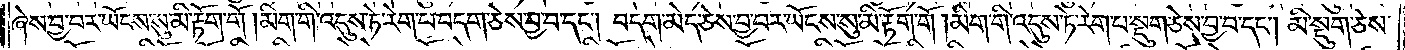ཞེས་བྱ་བར་ཡོངས་སུ་མི་རྟོག་གོ །མིག་གི་འདུས་ཏེ་རེག་པ་བདག་ཅེས་བྱ་བ་དང༌། བདག་མེད་ཅེས་བྱ་བར་ཡོངས་སུ་མི་རྟོག་གོ །མིག་གི་འདུས་ཏེ་རེག་པ་སྡུག་ཅེས་བྱ་བ་དང༌། མི་སྡུག་ཅེས་
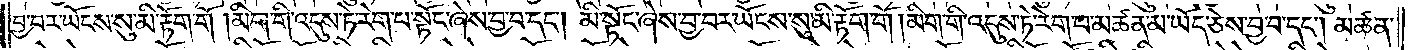བྱ་བར་ཡོངས་སུ་མི་རྟོག་གོ །མིག་གི་འདུས་ཏེ་རེག་པ་སྟོང་ཞེས་བྱ་བ་དང༌། མི་སྟོང་ཞེས་བྱ་བར་ཡོངས་སུ་མི་རྟོག་གོ །མིག་གི་འདུས་ཏེ་རེག་པ་མཚན་མ་ཡོད་ཅེས་བྱ་བ་དང༌། མཚན་
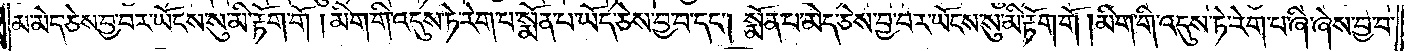མ་མེད་ཅེས་བྱ་བར་ཡོངས་སུ་མི་རྟོག་གོ །མིག་གི་འདུས་ཏེ་རེག་པ་སྨོན་པ་ཡོད་ཅེས་བྱ་བ་དང༌། སྨོན་པ་མེད་ཅེས་བྱ་བར་ཡོངས་སུ་མི་རྟོག་གོ །མིག་གི་འདུས་ཏེ་རེག་པ་ཞི་ཞེས་བྱ་བ་
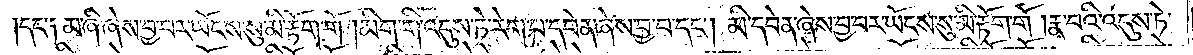དང༌། མ་ཞི་ཞེས་བྱ་བར་ཡོངས་སུ་མི་རྟོག་གོ །མིག་གི་འདུས་ཏེ་རེག་པ་དབེན་ཞེས་བྱ་བ་དང༌། མི་དབེན་ཞེས་བྱ་བར་ཡོངས་སུ་མི་རྟོག་གོ །རྣ་བའི་འདུས་ཏེ་
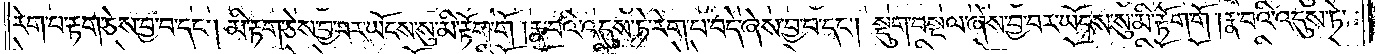རེག་པ་རྟག་ཅེས་བྱ་བ་དང༌། མི་རྟག་ཅེས་བྱ་བར་ཡོངས་སུ་མི་རྟོག་གོ །རྣ་བའི་འདུས་ཏེ་རེག་པ་བདེ་ཞེས་བྱ་བ་དང༌། སྡུག་བསྔལ་ཞེས་བྱ་བར་ཡོངས་སུ་མི་རྟོག་གོ །རྣ་བའི་འདུས་ཏེ་
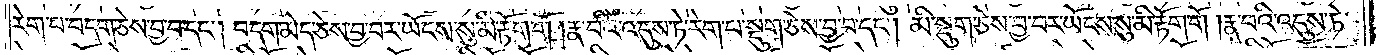རེག་པ་བདག་ཅེས་བྱ་བ་དང༌། བདག་མེད་ཅེས་བྱ་བར་ཡོངས་སུ་མི་རྟོག་གོ །རྣ་བའི་འདུས་ཏེ་རེག་པ་སྡུག་ཅེས་བྱ་བ་དང༌། མི་སྡུག་ཅེས་བྱ་བར་ཡོངས་སུ་མི་རྟོག་གོ །རྣ་བའི་འདུས་ཏེ་
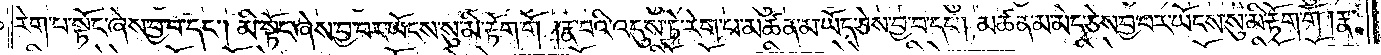རེག་པ་སྟོང་ཞེས་བྱ་བ་དང༌། མི་སྟོང་ཞེས་བྱ་བར་ཡོངས་སུ་མི་རྟོག་གོ །རྣ་བའི་འདུས་ཏེ་རེག་པ་མཚན་མ་ཡོད་ཅེས་བྱ་བ་དང༌། མཚན་མ་མེད་ཅེས་བྱ་བར་ཡོངས་སུ་མི་རྟོག་གོ །རྣ་
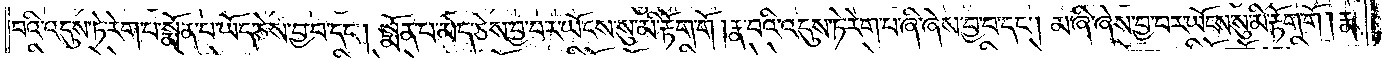བའི་འདུས་ཏེ་རེག་པ་སྨོན་པ་ཡོད་ཅེས་བྱ་བ་དང༌། སྨོན་པ་མེད་ཅེས་བྱ་བར་ཡོངས་སུ་མི་རྟོག་གོ །རྣ་བའི་འདུས་ཏེ་རེག་པ་ཞི་ཞེས་བྱ་བ་དང༌། མ་ཞི་ཞེས་བྱ་བར་ཡོངས་སུ་མི་རྟོག་གོ །རྣ་
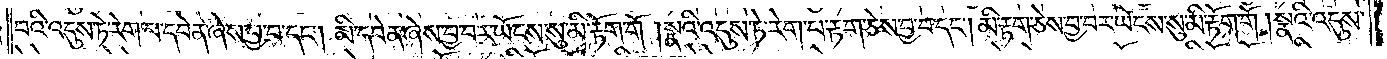བའི་འདུས་ཏེ་རེག་པ་དབེན་ཞེས་བྱ་བ་དང༌། མི་དབེན་ཞེས་བྱ་བར་ཡོངས་སུ་མི་རྟོག་གོ །སྣའི་འདུས་ཏེ་རེག་པ་རྟག་ཅེས་བྱ་བ་དང༌། མི་རྟག་ཅེས་བྱ་བར་ཡོངས་སུ་མི་རྟོག་གོ །སྣའི་འདུས་
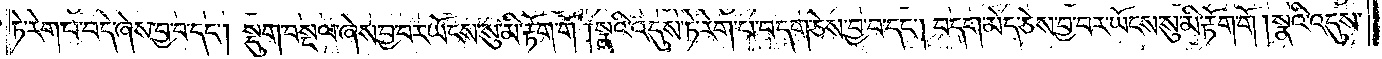ཏེ་རེག་པ་བདེ་ཞེས་བྱ་བ་དང༌། སྡུག་བསྔལ་ཞེས་བྱ་བར་ཡོངས་སུ་མི་རྟོག་གོ །སྣའི་འདུས་ཏེ་རེག་པ་བདག་ཅེས་བྱ་བ་དང༌། བདག་མེད་ཅེས་བྱ་བར་ཡོངས་སུ་མི་རྟོག་གོ །སྣའི་འདུས་
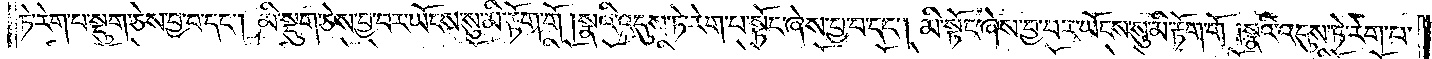ཏེ་རེག་པ་སྡུག་ཅེས་བྱ་བ་དང༌། མི་སྡུག་ཅེས་བྱ་བར་ཡོངས་སུ་མི་རྟོག་གོ །སྣའི་འདུས་ཏེ་རེག་པ་སྟོང་ཞེས་བྱ་བ་དང༌། མི་སྟོང་ཞེས་བྱ་བར་ཡོངས་སུ་མི་རྟོག་གོ །སྣའི་འདུས་ཏེ་རེག་པ་
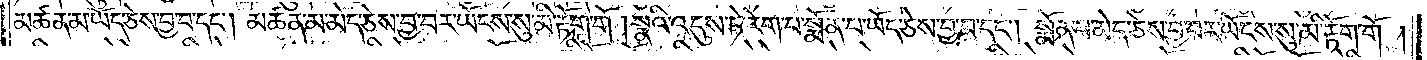མཚན་མ་ཡོད་ཅེས་བྱ་བ་དང༌། མཚན་མ་མེད་ཅེས་བྱ་བར་ཡོངས་སུ་མི་རྟོག་གོ །སྣའི་འདུས་ཏེ་རེག་པ་སྨོན་པ་ཡོད་ཅེས་བྱ་བ་དང༌། སྨོན་པ་མེད་ཅེས་བྱ་བར་ཡོངས་སུ་མི་རྟོག་གོ །
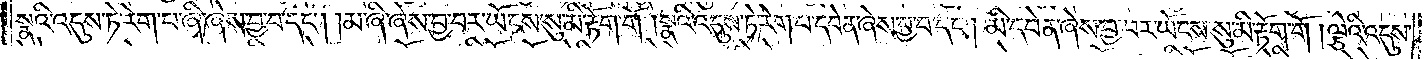སྣའི་འདུས་ཏེ་རེག་པ་ཞི་ཞེས་བྱ་བ་དང༌། མ་ཞི་ཞེས་བྱ་བར་ཡོངས་སུ་མི་རྟོག་གོ །སྣའི་འདུས་ཏེ་རེག་པ་དབེན་ཞེས་བྱ་བ་དང༌། མི་དབེན་ཞེས་བྱ་བར་ཡོངས་སུ་མི་རྟོག་གོ །ལྕེའི་འདུས་
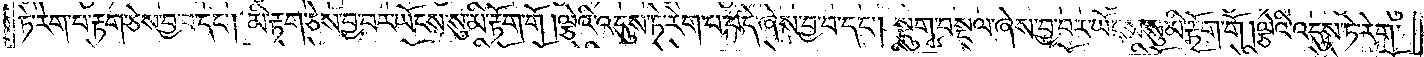ཏེ་རེག་པ་རྟག་ཅེས་བྱ་བ་དང༌། མི་རྟག་ཅེས་བྱ་བར་ཡོངས་སུ་མི་རྟོག་གོ །ལྕེའི་འདུས་ཏེ་རེག་པ་བདེ་ཞེས་བྱ་བ་དང༌། སྡུག་བསྔལ་ཞེས་བྱ་བར་ཡོངས་སུ་མི་རྟོག་གོ །ལྕེའི་འདུས་ཏེ་རེག་
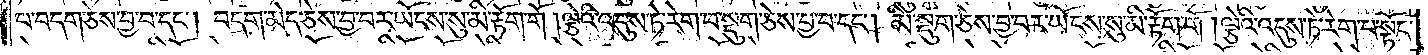པ་བདག་ཅེས་བྱ་བ་དང༌། བདག་མེད་ཅེས་བྱ་བར་ཡོངས་སུ་མི་རྟོག་གོ །ལྕེའི་འདུས་ཏེ་རེག་པ་སྡུག་ཅེས་བྱ་བ་དང༌། མི་སྡུག་ཅེས་བྱ་བར་ཡོངས་སུ་མི་རྟོག་གོ །ལྕེའི་འདུས་ཏེ་རེག་པ་སྟོང་
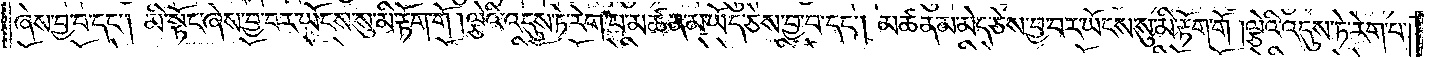ཞེས་བྱ་བ་དང༌། མི་སྟོང་ཞེས་བྱ་བར་ཡོངས་སུ་མི་རྟོག་གོ །ལྕེའི་འདུས་ཏེ་རེག་པ་མཚན་མ་ཡོད་ཅེས་བྱ་བ་དང༌། མཚན་མ་མེད་ཅེས་བྱ་བར་ཡོངས་སུ་མི་རྟོག་གོ །ལྕེའི་འདུས་ཏེ་རེག་པ་
